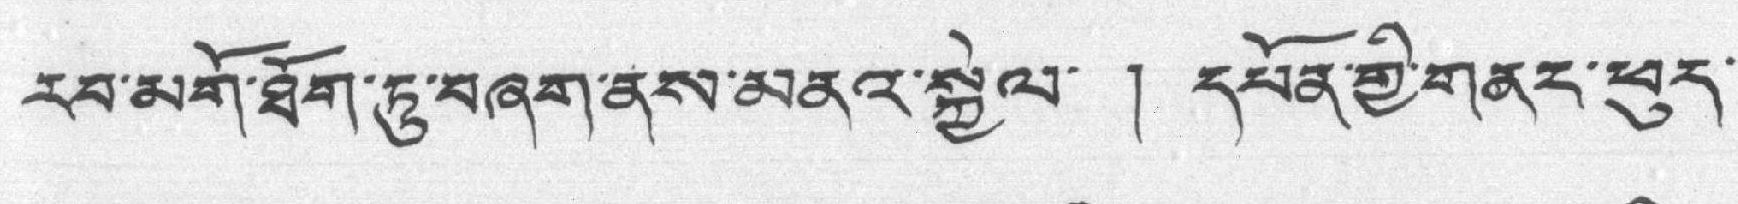རབ་མགོ་ཐོག་ཏུ་བཞག་ནས་མནའ་སྐྱེལ་ ། དཔོན་གྱི་གནང་ཕུད་
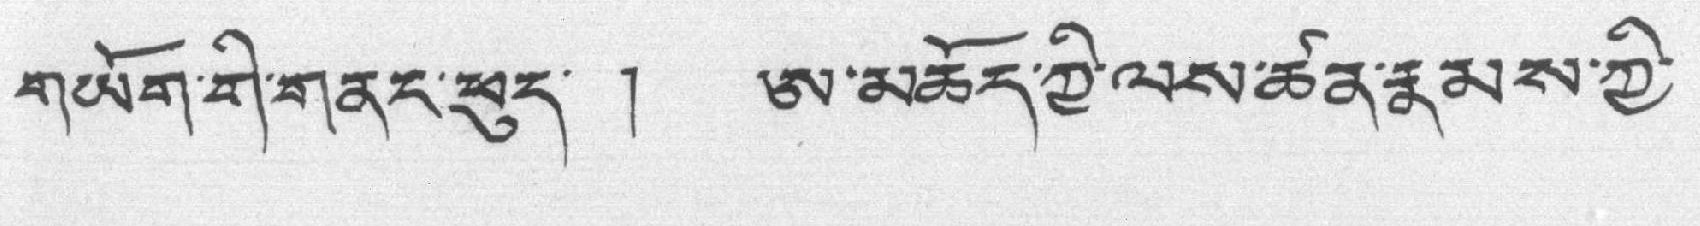གཡོག་གི་གནང་ཕུད་ ། ཨ་མཆོད་ཀྱི་ལས་ཚན་རྣམས་ཀྱི་
